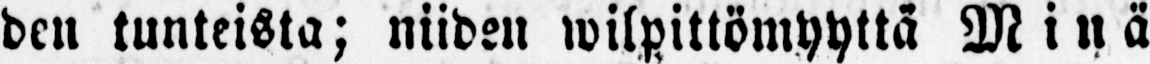den tunteista; niiden wilpittömyyttä Minä
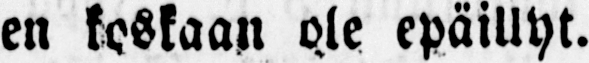en koskaan ole epäillyt.
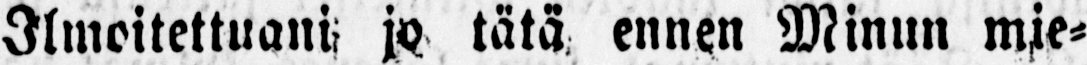Ilmoitettuani jo tätä ennen Minun mie-
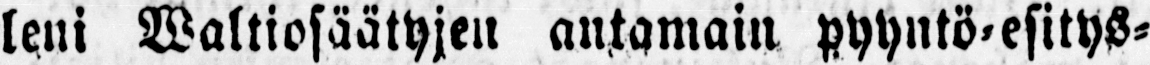leni Waltiosäätyjen antamain pyyntö-esitys-
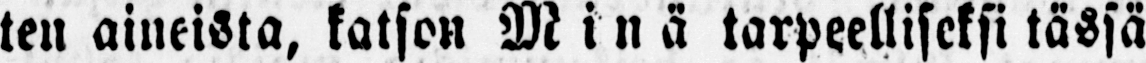ten aineista, katson Minä tarpeelliseksi tässä
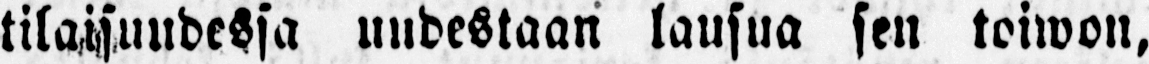tilaisuudessa uudestaan lausua sen toiwon,
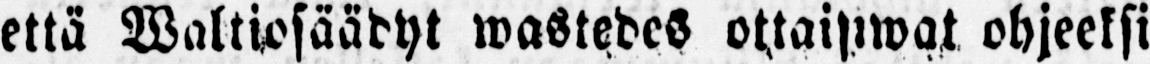että Waltiosäadyt wastedes ottaisiwat ohjeeksi
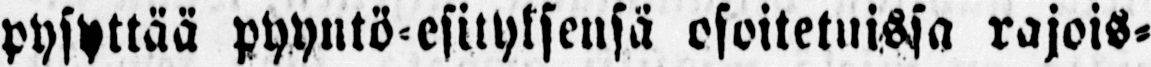pysyttää pyyntö-esityksensä osoitetuissa rajois-
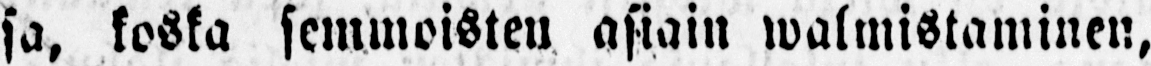sa, koska semmoisten asiain walmistaminen,
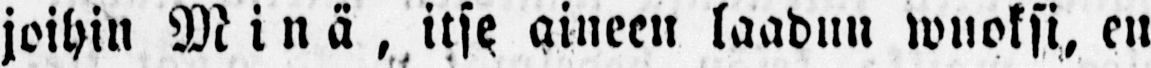joihin Minä, itse aineen laadun wuoksi, en
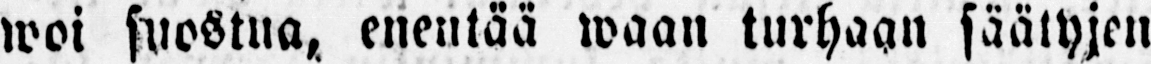woi suostua, enentää waan turhaan säätyjen
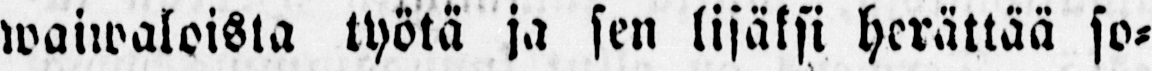waiwaloista työtä ja sen lisäksi herättää so-
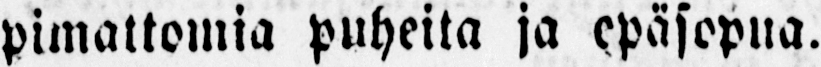pimattomia puheita ja epäsopua.
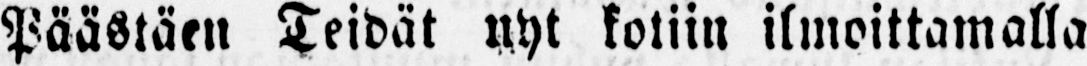Päästäen Teidät nyt kotiin ilmoittamalla
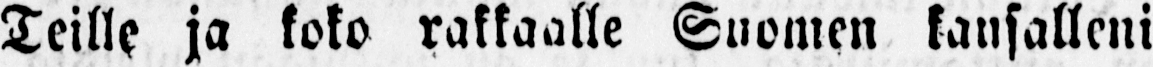Teille ja koko rakkaalle Suomen kansalleni
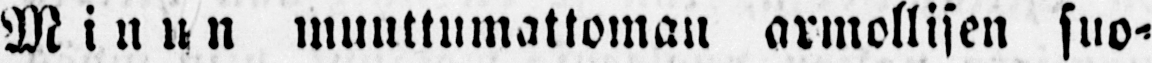Minun muuttumattoman armollisen suo-
